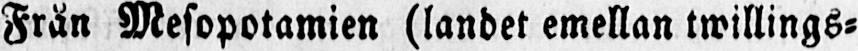Från Mesopotamien (landet emellan twillings-
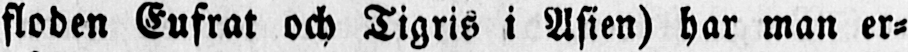floden Eufrat och Tigris i Asien) har man er-
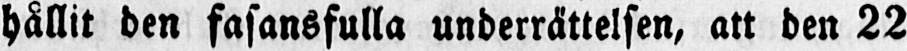hållit den fasansfulla underrättelsen, att den 22
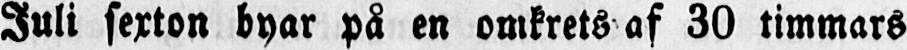Juli sexton byar på en omkrets af 30 timmars
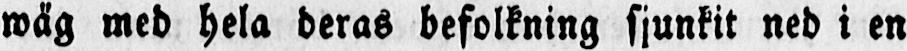wäg med hela deras befolkning sjunkit ned i en
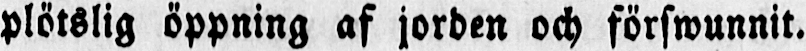plötslig öppning af jorden och förswunnit.
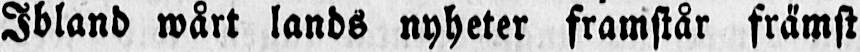Ibland wårt lands nyheter framstår främst
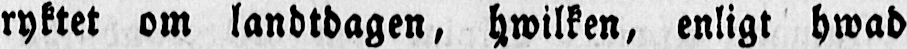ryktet om landtdagen, hwilken, enligt hwad
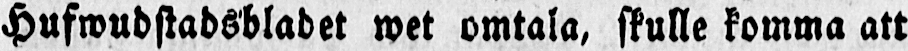Hufwudstabsblabet wet omtala, skulle komma att
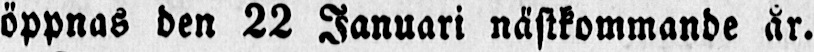öppnas den 22 Januari nästkommande år.
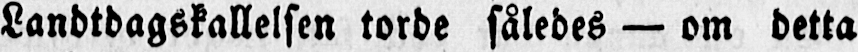Landtdagskallelsen torde således — om detta
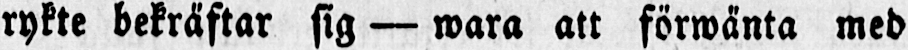rykte bekräftar sig — wara att förwänta med
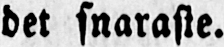det snaraste.
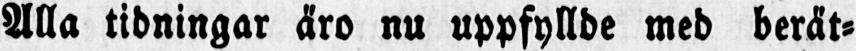Alla tidningar äro nu uppfyllde med berät-
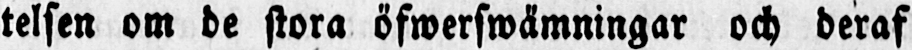telsen om de stora öfwerswämningar och deraf
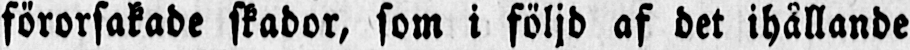förorsakade skador, som i följd af det ihållande
